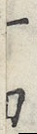十四
